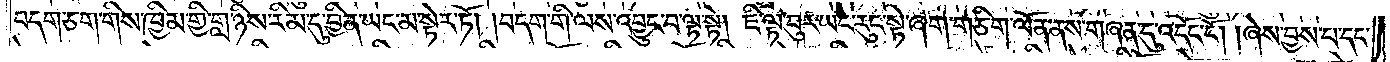བདག་ཅག་གིས་ཁྱིམ་གྱི་གླ་ཉིས་རིམ་དུ་བྱིན་ཡང་མ་སྟེར་ཏོ། །བདག་གི་ལས་འབྱུང་བ་ལྟ་སྟེ། ཇི་ལྟ་བུར་ཡང་རུང་སྟེ་ཞག་གཅིག་ལོན་ནས་གཞན་དུ་འདོང་ངོ༌། །ཞེས་བྱས་པ་དང་
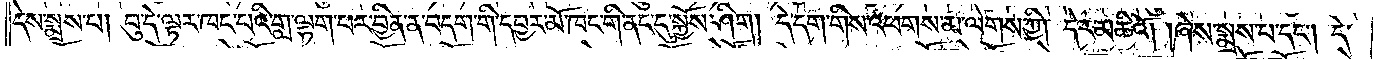དེས་སྨྲས་པ། བུ་དེ་ལྟར་ཁང་པའི་གླ་ལྷག་པར་བྱིན་ན་བདག་གི་དབྱར་མོ་ཁང་གི་ནང་དུ་སྐྱོས་ཤིག། དེ་དག་གིས་འཕགས་མ་ལེགས་ཀྱི། དེར་མཆིའོ། །ཞེས་སྨྲས་པ་དང༌། དེ་
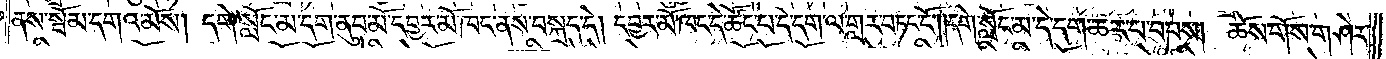ནས་སྦོམ་དགའ་མོས། དགེ་སློང་མ་དག་ནུབ་མོ་དབྱར་མོ་ཁང་ནས་བསྐྲད་དེ། དབྱར་མོ་ཁང་དེ་ཚོང་པ་དེ་དག་ལ་གླར་བཏང་ངོ༌། །དགེ་སློང་མ་དེ་དག་ཆར་པ་བབས། ཆོས་གོས་གཤེར་
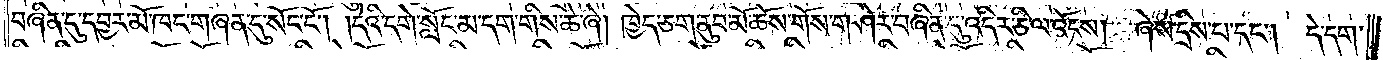བཞིན་དུ་དབྱར་མོ་ཁང་གཞན་དུ་སོང་ངོ༌། །དེའི་དགེ་སློང་མ་དག་གིས་ཆེ་ཞེ། ཁྱེད་ཅག་ནུབ་མོ་ཆོས་གོས་གཤེར་བཞིན་དུ་འདིར་ཅི་ལ་འོངས། ཞེས་དྲིས་པ་དང༌། དེ་དག་
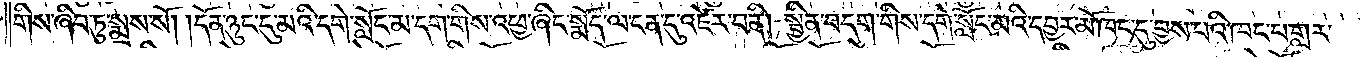གིས་ཞིབ་ཏུ་སྨྲས་སོ། །དོན་ཉུང་དུ་མའི་དགེ་སློང་མ་དག་གིས་འཕྱ་ཞིང་སྨོད་ལ་ངན་དུ་འཛེར་བ་ནི། སྦྱིན་བདག་གིས་དགེ་སློང་མའི་དབྱར་མོ་ཁང་དུ་བྱས་པའི་ཁང་པ་གླར་
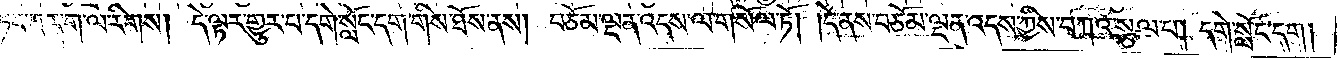གཏང་བར་ག་ལ་རིགས། དེ་ལྟར་གྱུར་པ་དགེ་སློང་དག་གིས་ཐོས་ནས། བཅོམ་ལྡན་འདས་ལ་གསོལ་ཏོ། །དེ་ནས་བཅོམ་ལྡན་འདས་ཀྱིས་བཀའ་སྩལ་པ། དགེ་སློང་དག།
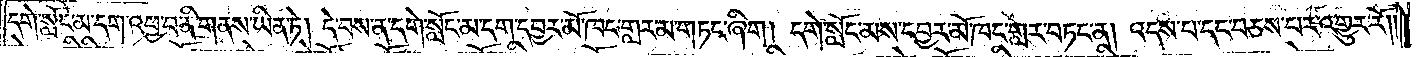དགེ་སློང་མ་དག་འཕྱ་བ་ནི་གནས་ཡིན་ཏེ། དེ་བས་ན་དགེ་སློང་མ་དག་དབྱར་མོ་ཁང་གླར་མ་གཏང་ཞིག། དགེ་སློང་མས་དབྱར་མོ་ཁང་གླར་བཏང་ན། འདས་པ་དང་བཅས་པར་འགྱུར་རོ༎
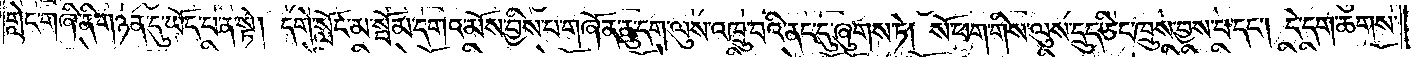གླེང་གཞི་ནི་གཉན་དུ་ཡོད་པ་ན་སྟེ། དགེ་སློང་མ་སྦོམ་དགའ་མོས་བྱིས་པ་གཞོན་ནུ་དག་ལུས་འཁྲུ་བའི་ནང་དུ་ཞུགས་ཏེ། སོ་ཕག་གིས་ལུས་དྲུད་ཅིང་ཁྲུས་བྱས་པ་དང༌། དེ་དག་ཆགས་
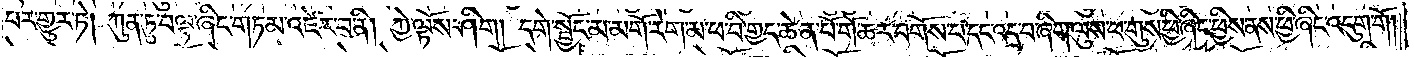པར་གྱུར་ཏེ། ཀུན་ཏུ་བལྟ་ཞིང་གཏམ་འཛེར་བ་ནི། ཀྱེ་ལྟོས་ཤིག །དགེ་སྦྱོང་མ་མགོ་རེག་མ་ཕ་བི་གྱད་ཆེན་པོ་གོ་ཆར་བགོས་པ་དང་འདྲ་བ་ཞིག་ལུས་ཕ་གུས་ཕྱི་ཞིང་ཕྱིས་ནས་ཕྱི་ཞིང་འདུག་གོ།
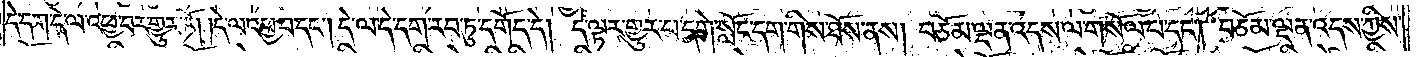དེ་དག་དེ་ལ་འཕྱ་བར་གྱུར་ཏོ། །དེ་ལ་འཕྱ་བ་དང༌། དེ་ལ་དེ་དག་རབ་ཏུ་དགོད་དེ། དེ་ལྟར་གྱུར་པ་དགེ་སློང་དག་གིས་ཐོས་ནས། བཅོམ་ལྡན་འདས་ལ་གསོལ་པ་དང༌། བཅོམ་ལྡན་འདས་ཀྱིས་
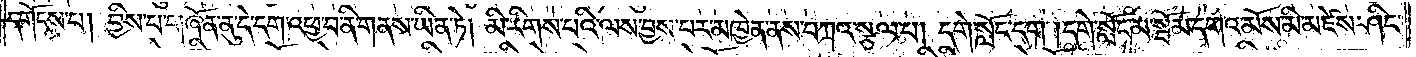དགོངས་པ། བྱིས་པ་གཞོན་ནུ་དེ་དག་འཕྱ་བ་ནི་གནས་ཡིན་ཏེ། མི་རིགས་པའི་ལས་བྱས་པར་མཁྱེན་ནས་བཀའ་སྩལ་པ། དགེ་སློང་དག །དགེ་སློང་མ་སྦོམ་དགའ་མོས་མི་མཛེས་ཤིང་
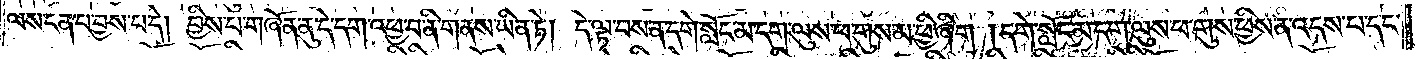ལས་ངན་པ་བྱས་པ་དེ། བྱིས་པ་གཞོན་ནུ་དེ་དག་འཕྱ་བ་ནི་གནས་ཡིན་ཏེ། དེ་ལྟ་བས་ན་དགེ་སློང་མ་དག་ལུས་ཕ་གུས་མ་ཕྱི་ཞིག །དགེ་སློང་མ་དག་ལུས་ཕ་གུས་ཕྱིས་ན་འདས་པ་དང་
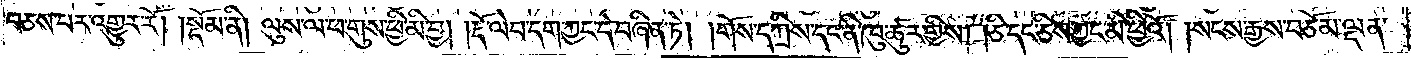བཅས་པར་འགྱུར་རོ།    །སྡོམ་ནི། ལུས་ལ་ཕ་གུས་ཕྱི་མི་བྱ། །རྡོ་ལེབ་དག་ཀྱང་དེ་བཞིན་ཏེ། །གོས་དཀྲིས་དང་ནི་ཁུ་ཚུར་གྱིས། །ཅི་དང་ཅིས་ཀྱང་མི་ཕྱིའོ། །སངས་རྒྱས་བཅོམ་ལྡན་
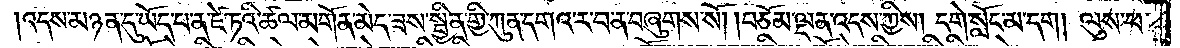འདས་མཉན་དུ་ཡོད་པ་ན་ཛེ་ཏའི་ཚལ་མགོན་མེད་ཟས་སྦྱིན་གྱི་ཀུན་དགའ་ར་བ་ན་བཞུགས་སོ། །བཅོམ་ལྡན་འདས་ཀྱིས། དགེ་སློང་མ་དག། ལུས་ཕ་
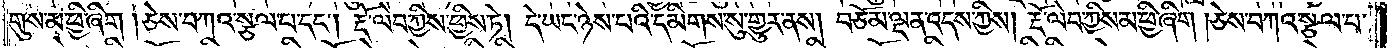གུས་མ་ཕྱི་ཞིག །ཅེས་བཀའ་སྩལ་པ་དང༌། རྡོ་ལེབ་ཀྱིས་ཕྱིས་ཏེ། དེ་ཡང་ཉེས་པའི་དམིགས་སུ་གྱུར་ནས། བཅོམ་ལྡན་འདས་ཀྱིས། རྡོ་ལེབ་ཀྱིས་མ་ཕྱི་ཞིག །ཅེས་བཀའ་སྩལ་པ་
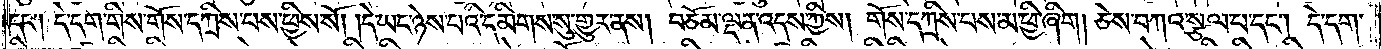དང༌། དེ་དག་གིས་གོས་དཀྲིས་པས་ཕྱིས་སོ། །དེ་ཡང་ཉེས་པའི་དམིགས་སུ་གྱུར་ནས། བཅོམ་ལྡན་འདས་ཀྱིས། གོས་དཀྲིས་པས་མ་ཕྱི་ཞིག། ཅེས་བཀའ་སྩལ་པ་དང༌། དེ་དག་
